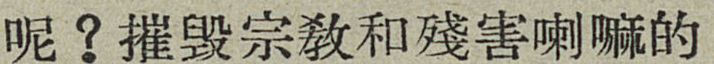呢？摧毀宗敎和殘害喇嘛的
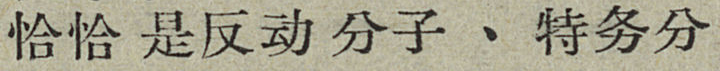恰恰是反动分子、特务分
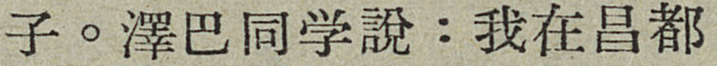子。澤巴同学說：我在昌都
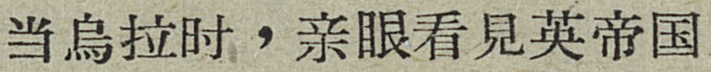当烏拉时，亲眼看見英帝国
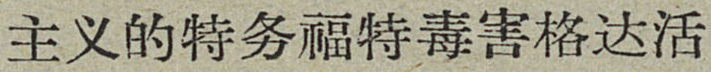主义的特务福特毒害格达活
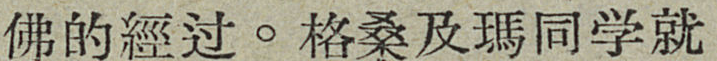佛的經过。格桑及瑪同学就
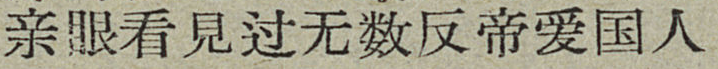亲眼看見过无数反帝爱国人
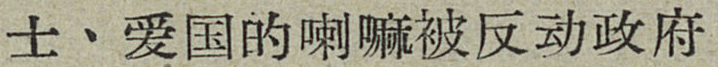士、爱国的喇嘛被反动政府
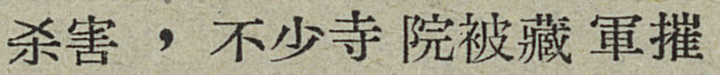杀害，不少寺院被藏軍摧
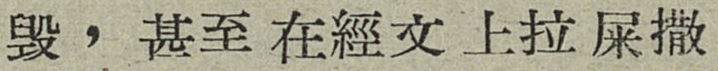毁，甚至在經文上拉屎撒
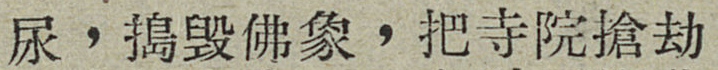尿，搗毀佛象，把寺院搶劫
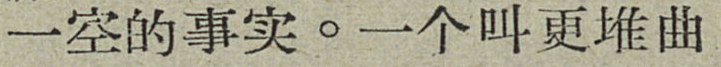一空的事实。一个叫更堆曲
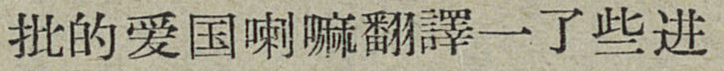批的爱国喇嘛翻譯一了些进
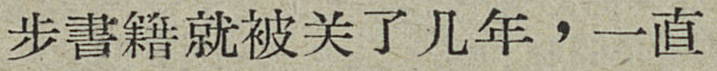步書籍就被关了几年，一直
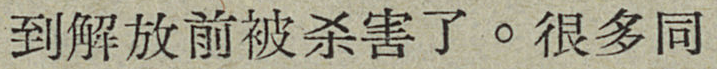到解放前被杀害了。很多同
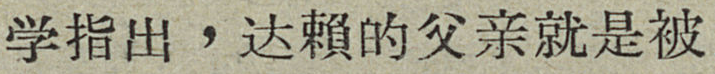学指出，达賴的父亲就是被
